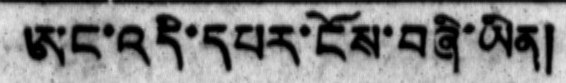ཨང་འདི་དཔར་ངོས་བཞི་ཡིན།
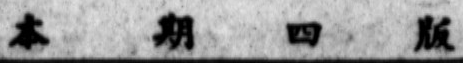本 期 四 版
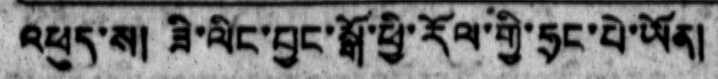འཕུད་ས།  ཟི་ལིང་བྱང་སྒོ་ཕྱི་རོལ་གྱི་ཧྲང་པེ་ཡོན།
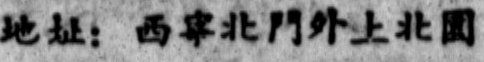地址：西寧北門外上北園
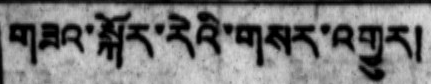གཟའ་སྐོར་རེའི་གསར་འགྱུར།
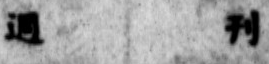週 刊
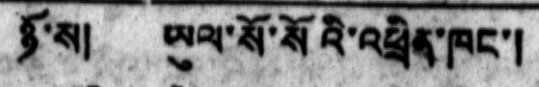ཉོ་ས།  ཡུལ་སོ་སོའི་འཕྲིན་ཁང་།
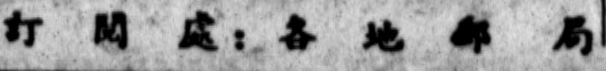訂 閱 處：各 地 郵 局
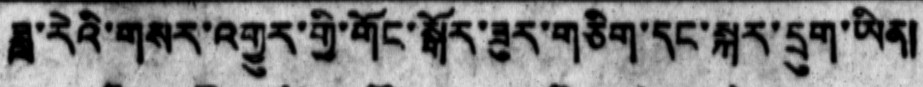ཟླ་རེའི་གསར་འགྱུར་གྱི་གོང་སྒོར་ཟུར་གཅིག་དང་སྐར་དྲུག་ཡིན།
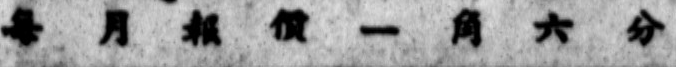每 月 報 價 一 角 六 分
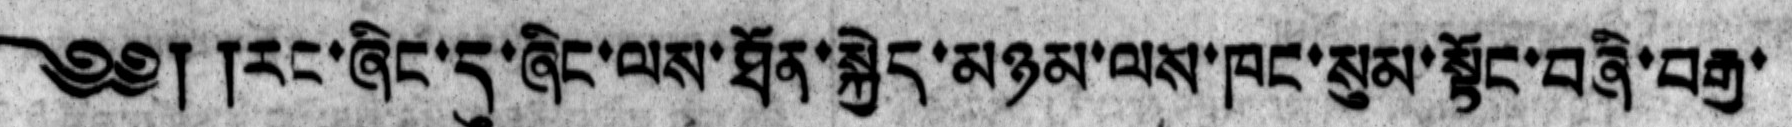༄༅། །རང་ཞིང་དུ་ཞིང་ལས་ཐོན་སྐྱེད་མཉམ་ལས་ཁང་སུམ་སྟོང་བཞི་བརྒྱ་
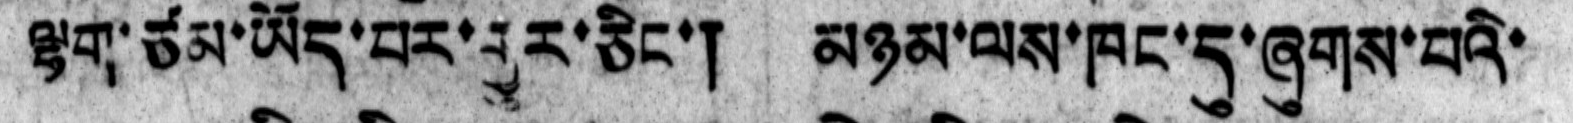ལྷག་ཙམ་ཡོད་བར་རྒྱུར་ཅིང་། མཉམ་ལས་ཁང་དུ་ཞུགས་པའི་
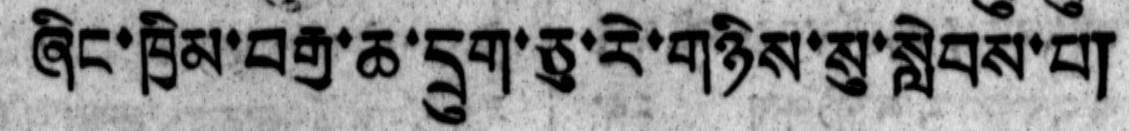ཞིང་ཁྱིམ་བརྒྱ་ཆ་དྲུག་ཅུ་རེ་གཉིས་སུ་སླེབས་པ།
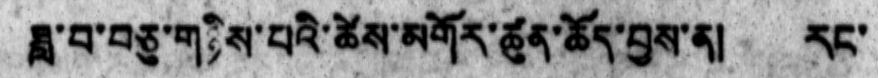ཟླ་བ་བཅུ་གཉིས་པའི་ཚེས་མགོར་ཚུན་ཆོད་བྱས་ན། རང་
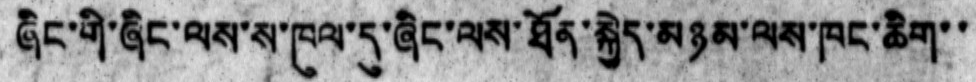ཞིང་གི་ཞིང་ལས་ས་ཁུལ་དུ་ཞིང་ལས་ཐོན་སྐྱེད་མཉམ་ལས་ཁང་ཆིག་་
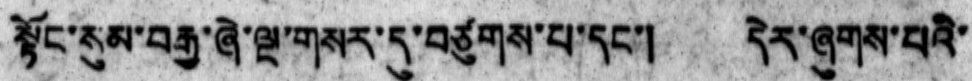སྟོང་སུམ་བརྒྱ་ཞེ་ལྔ་གསར་དུ་བཙུགས་པ་དང་། དེར་ཞུགས་པའི་
